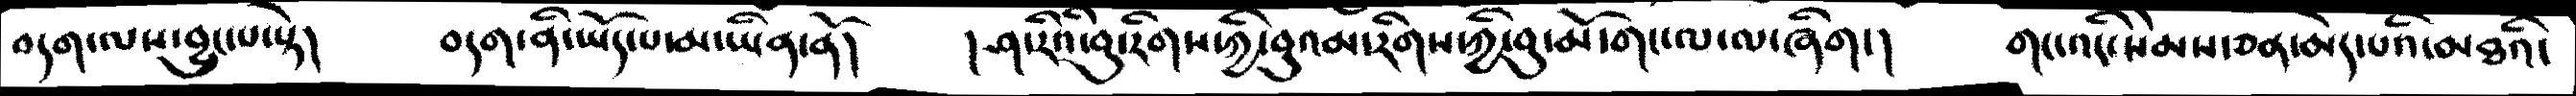བདག་ལས་བྱུང་བ་སྟེ།     བདག་ནི་ཡོད་པ་མ་ཡིན་ནོ།      །ཤ་རིའི་བུ་རིགས་ཀྱི་བུའམ་ཀྱི་བུའམ་རིགས་ཀྱི་བུ་མོ་གང་ལ་ལ་ཞིག་།     གང་འདི་སེམས་ཅན་མེད་པའི་མཐའི་
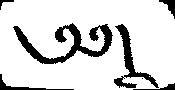༅༅།
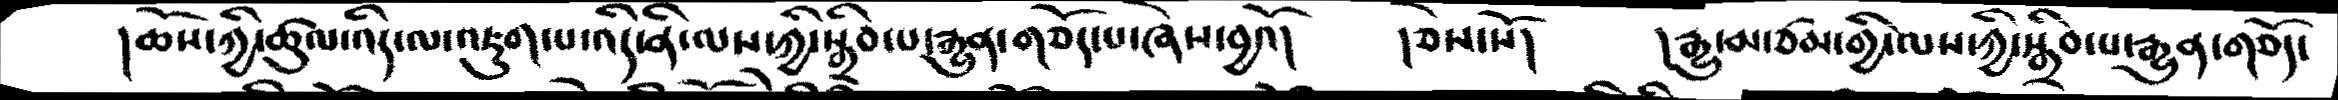།ཆོས་ཀྱི་ཚུལ་འདི་ལ་འཇུག་པ་འདི་ནི་ལས་ཀྱི་སྒྲིབ་པ་རྒྱུན་གཅོད་པ་ཞེས་བྱའོ།    །ཅེས་སོ།    །རྒྱུ་མ་ཙམ་གྱི་ལས་ཀྱི་སྒྲིབས་པ་རྒྱུན་གཅོད་
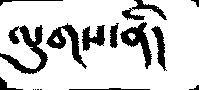ལུགས་ནི།
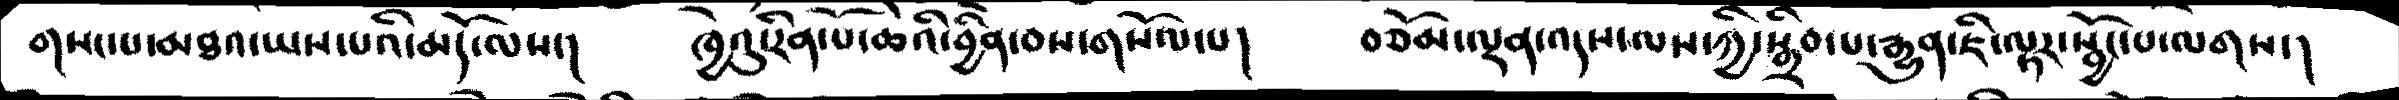གསང་པ་མཐའ་ཡས་པའི་མདོ་ལས་།   ཁྱེའུ་རིན་པོ་ཆེའི་བྱིན་བས་གསོལ་པ།   བཅོམ་ལྡན་འདས་ལས་ཀྱི་སྒྲིབ་པ་རྒྱུན་ཇི་ལྟར་སྦྱོང་ལ་ལགས་།
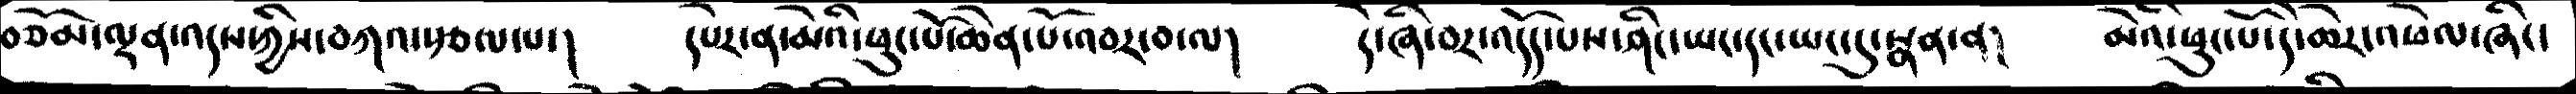བཅོམ་ལྡན་འདས་ཀྱིས་བཀའ་རྩལ་པ་།    དཔེར་ན་མེའི་ཕུང་པོ་ཆེན་པོ་འབར་བ་ལ།    དེ་ཞི་བར་འདོད་པས་ཤིང་ཡང་དང་ཡང་དུ་སྣན་ན།  མེའིཕུང་པོ་དེ་ཆེར་འཕེལ་ཞིང་།
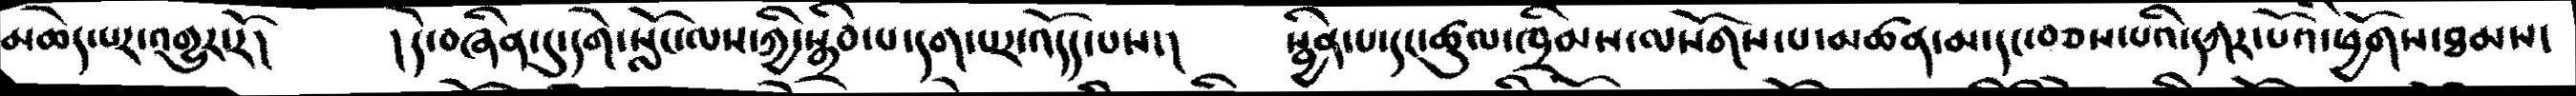མཆེད་པར་འགྱུར་རོ།    །དེ་བཞིན་དུ་དགེ་སློང་ལས་ཀྱི་སྒྲིབ་པ་དག་པར་འདོད་པས་།   སྦྱིན་པ་དང་ཚུལ་ཁྲིམས་ལསོགས་པ་མཚན་མ་དང་བཅས་པའི་དཀར་པོའི་ཕྱོགས་ཐམས་
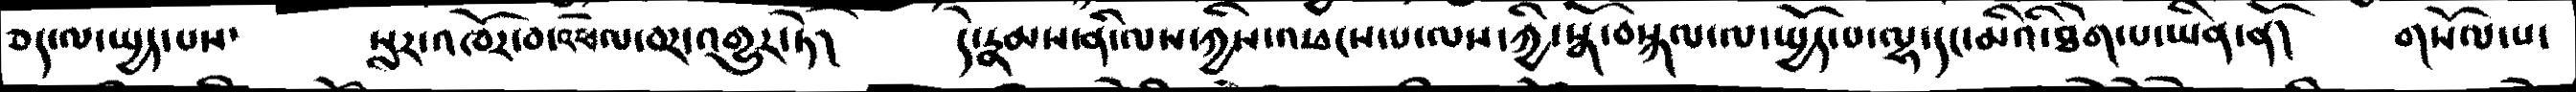ཅད་ལ་སྤྱད་པས་     སླར་འཁོར་བ་འཕེལ་བར་འགྱུར་ཏེ།    དེ་རྣམས་ནི་ལས་ཀྱིས་འཕངས་པ་ལས་ཀྱི་སྒོ་བསྐལ་ལ་སྤྱོད་པ་ལྷ་དང་མིའི་ཐེག་པ་ཡིན་ནོ།     གསོལ་པ་
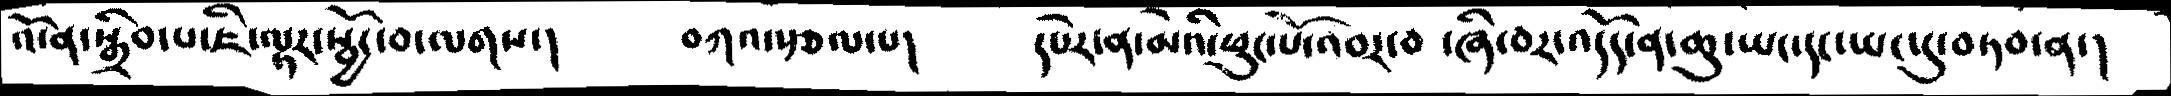འོ་ན་སྒྲིབ་པ་ཇི་ལྟར་སྦྱོང་བ་ལགས་།   བཀའ་རྩལ་པ།     དཔེར་ན་མེའི་ཕུང་པོ་འབར་བ ་ཞི་བར་འདོད་ན་ཆུ་ཡང་དང་ཡང་དུ་བཏབ་ན་།
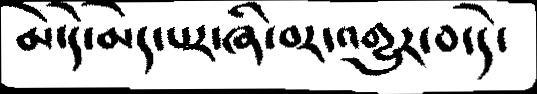མེད་དེ་མེད་པར་ཞི་བར་འགྱུར་བ་དེ་
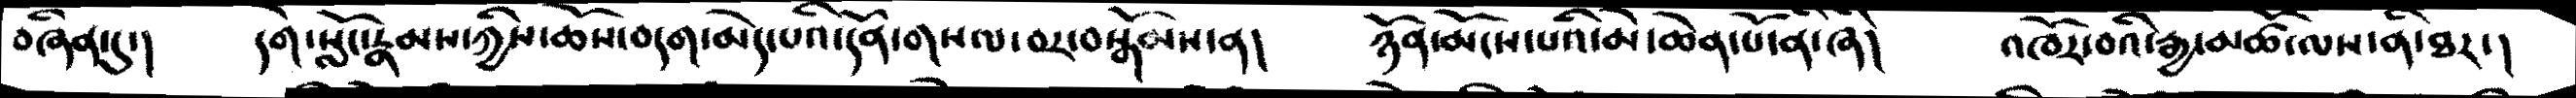བཞིན་དུ་།    དགེ་སློང་རྣམས་ཀྱིས་ཆོས་བདག་མེད་པའི་དོན་གསལ་བར་བསྒོམས་ན།     ཉོན་མོངས་པའི་མེ་ཆེན་པོ་ནི་ཞི།       འཁོར་བའི་རྒྱ་མཚོ་ལས་ནི་ཐར་།
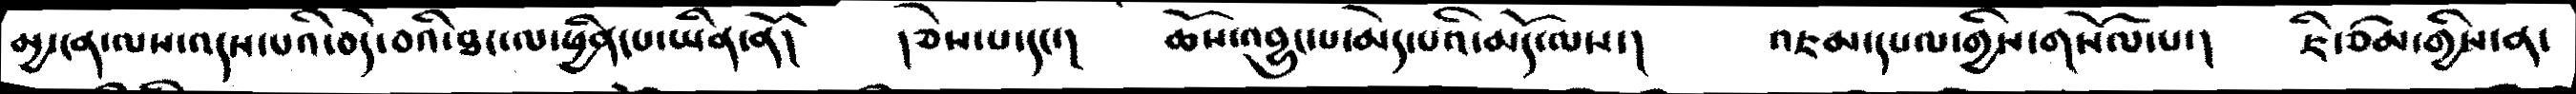མྱ་ངན་ལས་འདས་པའི་བདེ་བའི་ཐང་ལ་ཕྱིན་པ་ཡིན་ནོ།    །ཅེས་པ་དང་།    ཆོས་འབྱུང་པ་མེད་པའི་མདོ་ལས་།     འཇམ་དཔལ་གྱིས་གསོལ་པ་།    ཇི་ཙམ་གྱིས་ན་
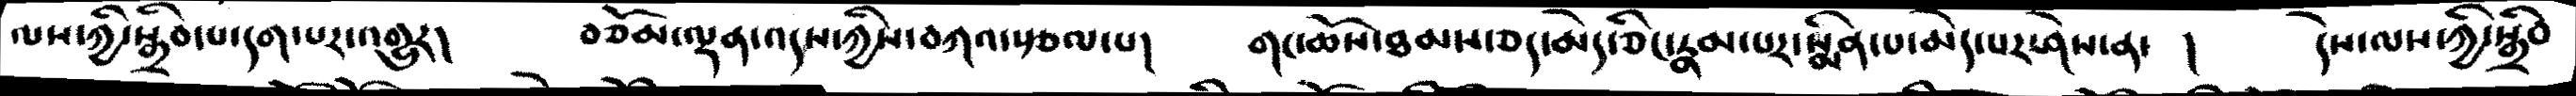ལས་ཀྱི་སྒྲིབ་པ་དག་པར་འགྱུར།  བཅོམ་ལྡན་འདས་ཀྱིས་བཀའ་རྩལ་པ།    གང་ཆོས་ཐམས་ཅད་མེད་ཅིང་རྣམ་པར་སྨིན་པ་མེད་པར་ཤེས་ན་  །  དེས་ལས་ཀྱི་སྒྲིབ
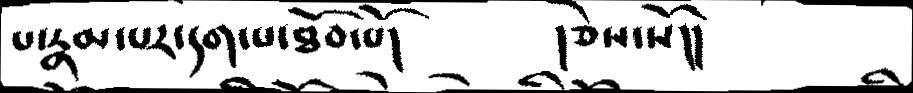པ་རྣམ་པར་དག་པ་ཐོབ་པོ།     །ཅེས་སོ།།
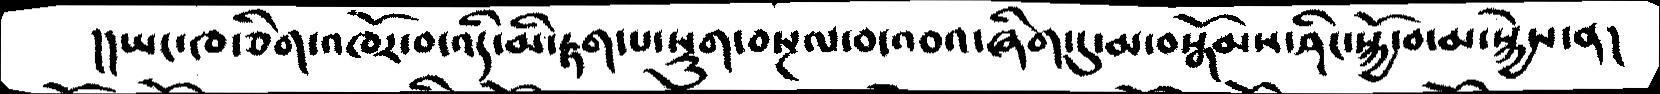།།ཡང་ཁ་ཅིག་འཁོར་བ་འདི་མི་རྟག་པ་སྡུག་བསྔལ་བ་འབའ་ཞིག་དུ་མ་བསྒོམས་ཤིང་སྐྱོ་བ་མ་སྐྱེས་ན།
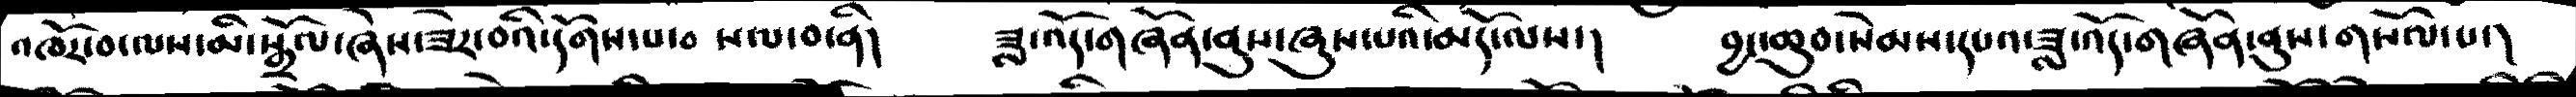འཁོར་བ་ལས་མི་སྒྲོལ་ཞེས་ཟེར་བའི་དགོས་པ་བ སལ་བ་ནི།    ཟླ་འོད་གཞོན་ནུ་ཞུས་པའི་མདོ་ལས་།    བྱང་ཆུབ་སེམས་དཔའ་ཟླ་འོད་གཞོན་ནུས་གསོལ་པ་།
